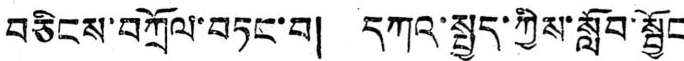བཅིངས་བཀྲོལ་བཏང་བ། དཀའ་སྤྱད་ཀྱིས་སློབ་སྦྱོང་
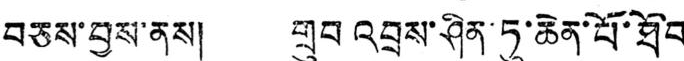བཅས་བྱས་ནས། གྲུབ འབྲས་ཤིན་ཏུ་ཆེན་པོ་ཐོབ་
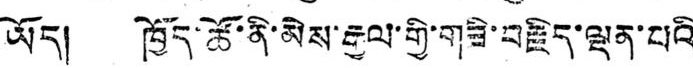ཡོད། ཁྱོད་ཙོཧ་ནི་མེས་རྒྱལ་གྱི་གཟི་བརྗིད་ལྡན་པའི
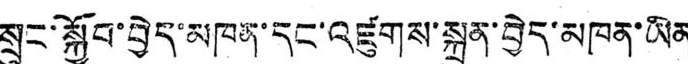སྲུང་སྐྱོབ་བྱེད་མཁན་དང་འཛུགས་སྐྲུན་བྱེད་མཁན་ཡིན
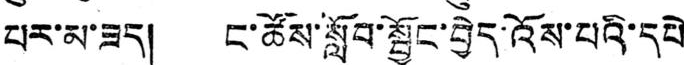པར་མ་ཟད། ང་ཚོས་སློབ་སྦྱོང་བྱད་འོས་པའི་དཔེ་
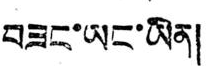བཟང་ཡང་ཡིན།
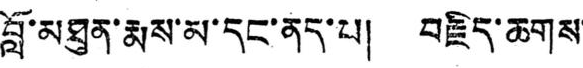བློ་མཐུན་རྨས་མ་དང་ནད་པ། བརྗིད་ཆགས་
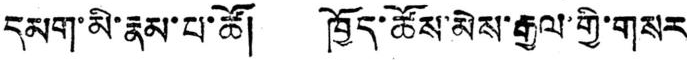དམག་མི་རྣམ་པ་ཚོ། ཁྱོད་ཚོས་མེས་རྒྱལ་གྱི་གསར་
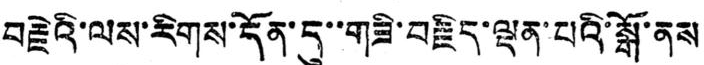བརྗེའི་ལས་རིགས་དོན་དུ་་གཟི་བརྗིད་ལྡན་པའི་སྒོ་ནས
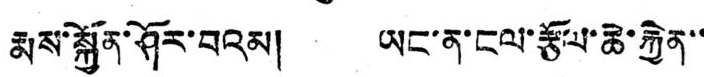རྨས་སྐྱོན་ཤོར་བའམ། ཡང་ན་ངལ་རྩོལ་ཆེ་རྐྱེན་་
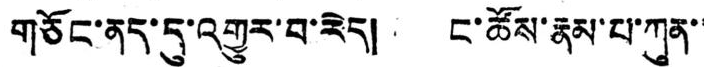གཅོང་ནད་དུ་འགྱུར་བ་རེད། ང་ཚོས་རྣམ་པ་ཀུན་་
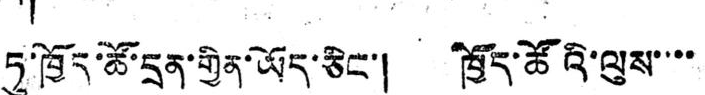ཏུ་ཁྱོད་ཚོ་དྲན་གྱིན་ཡོད་ཅིང་། ཁྱོད་ཚོའི་ལུས་་་་
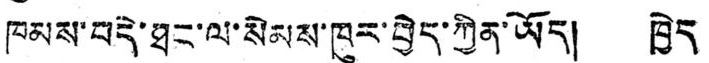ཁམས་བདེ་ཐང་ལ་སེམས་ཁུར་བྱེད་ཀྱིན་ཡོད། ཁྱེད
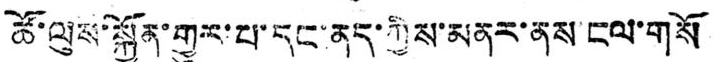ཚོ་ལུས་སྐྱོན་གྱུར་པ་དང་ནད་ཀྱིས་མནར་ནས་ངལ་གསོ
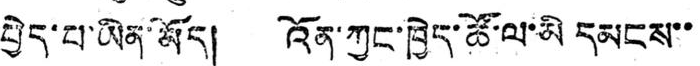བྱེད་པ་ཡིན་མོད། འོན་ཀྱང་ཁྱེད་ཚོ་ལ་མི དམངས་་
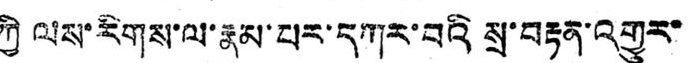ཀྱི ལས་རིགས་ལ་རྣམ་པར་དཀར་བའི སྲ་བརྟན་འགྱུར་
